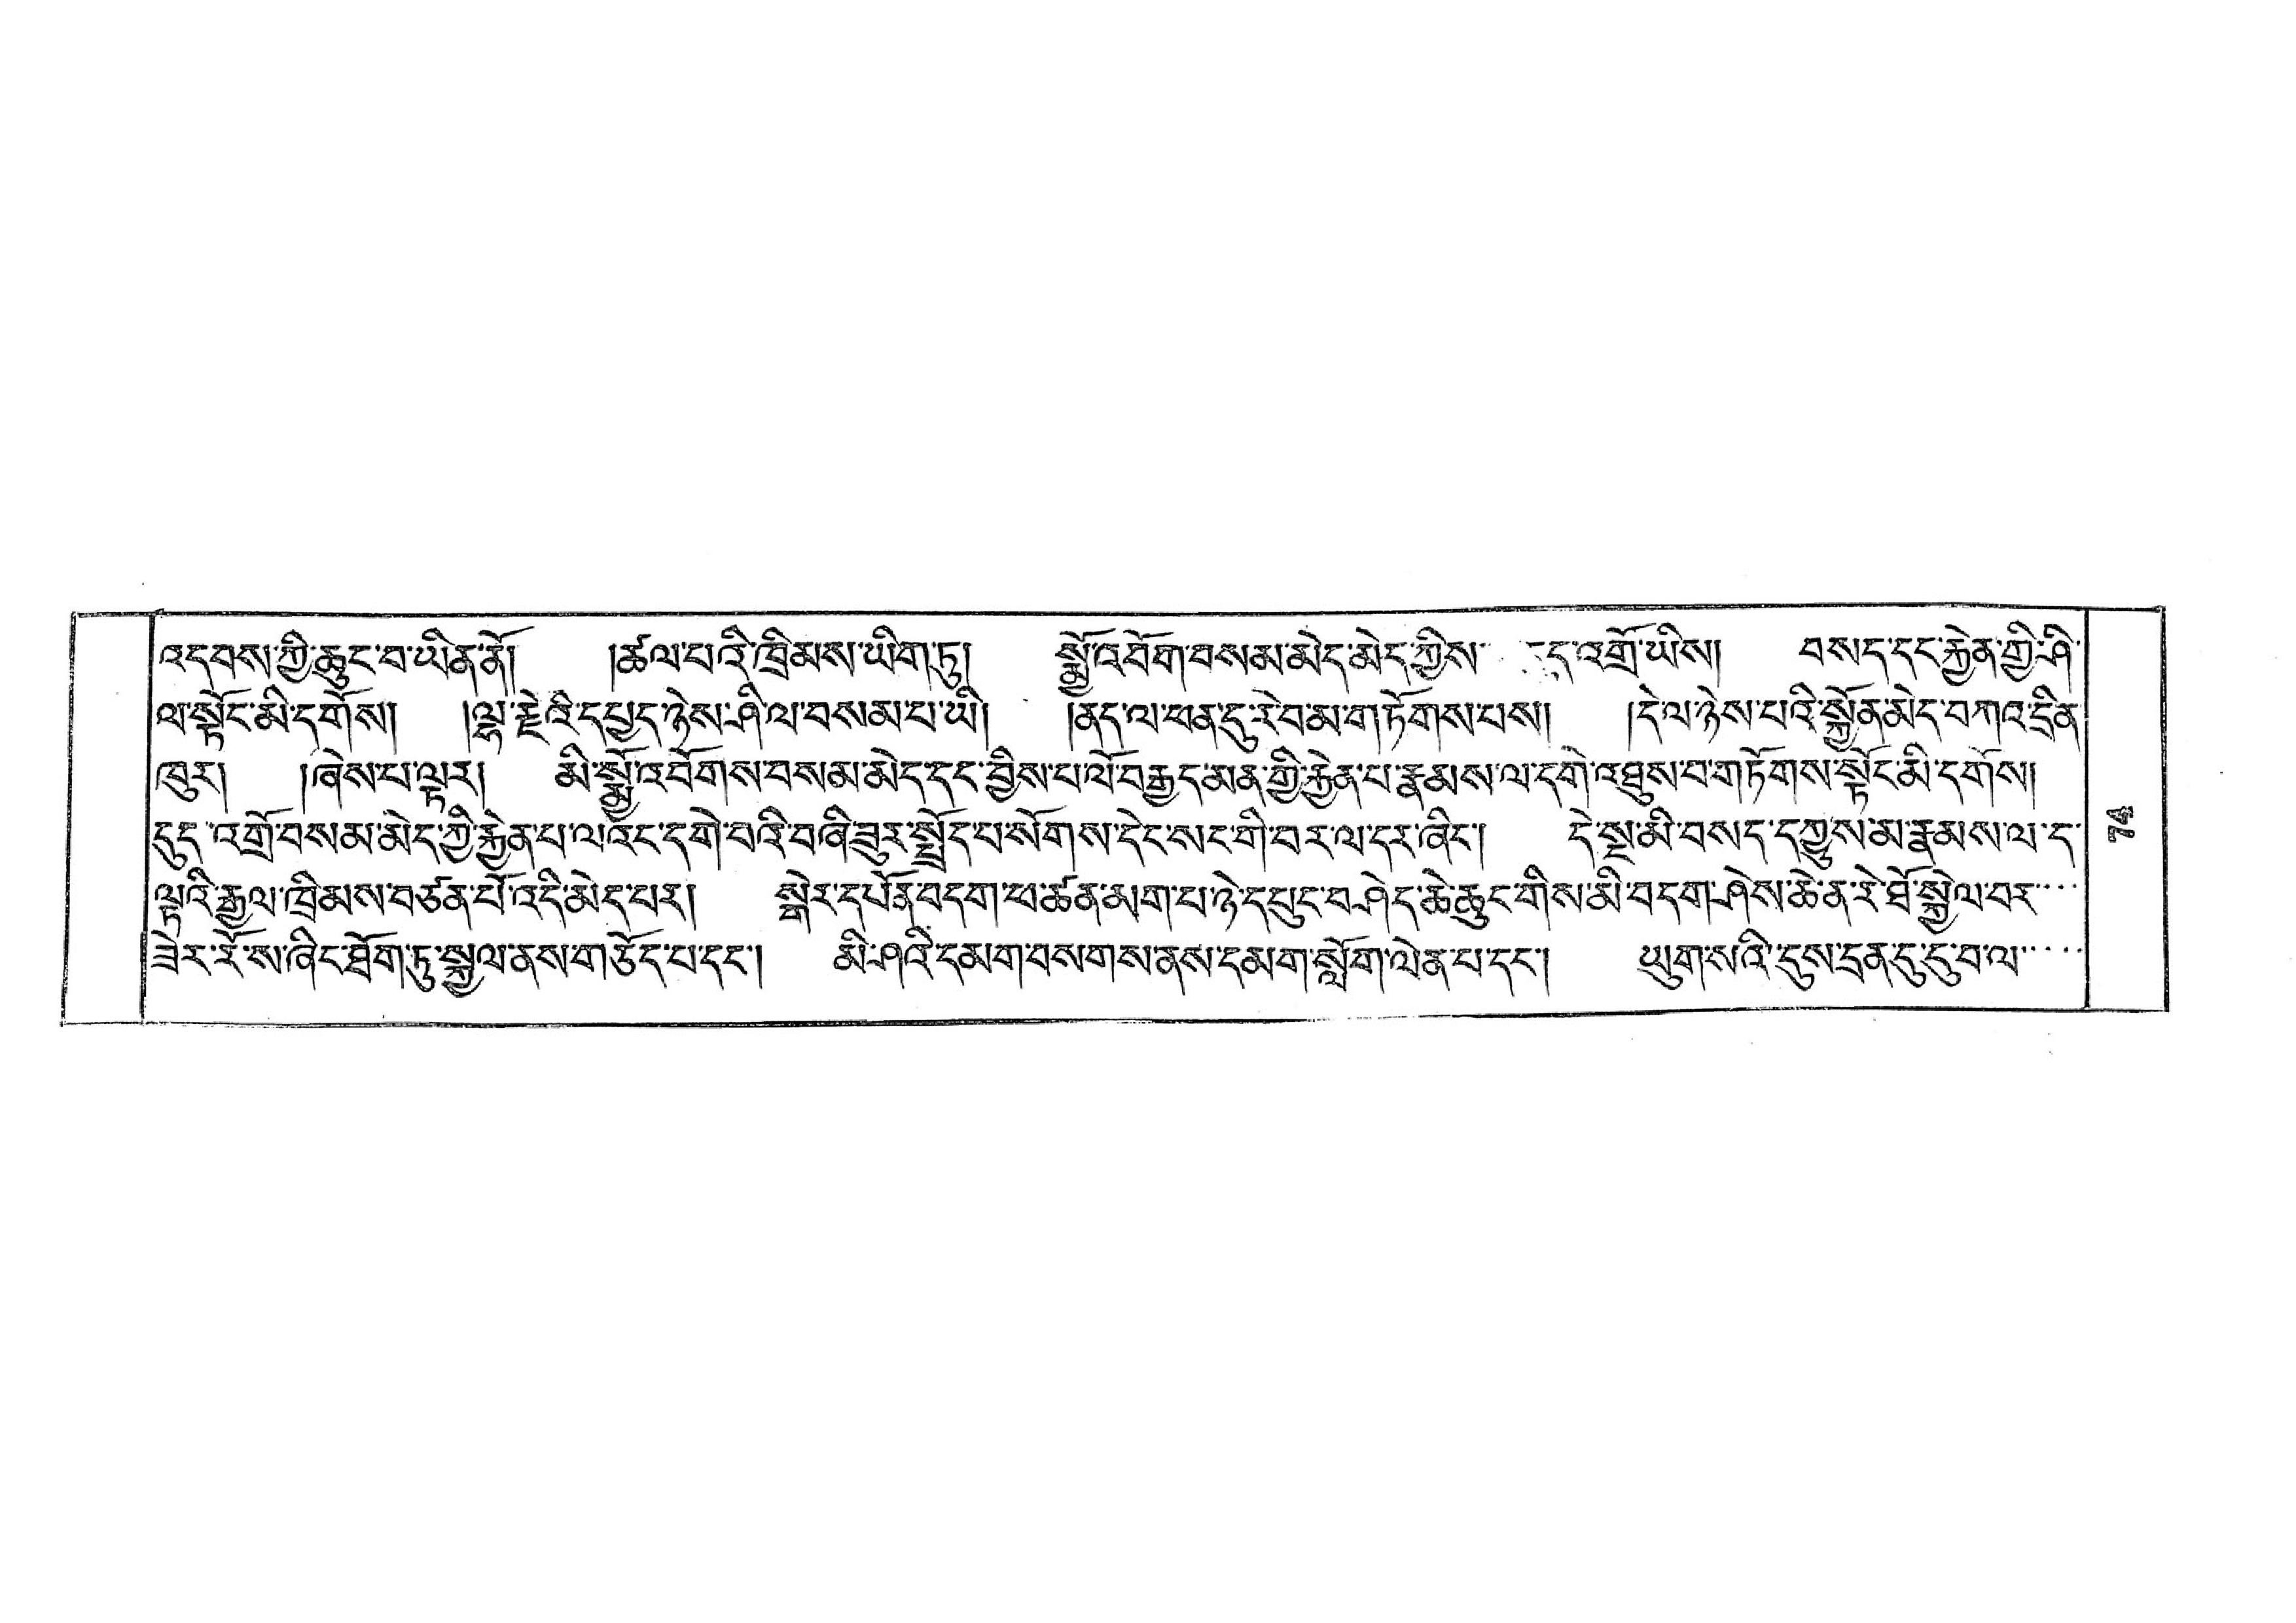འདབས་ཀྱི་ཆུང་བ་ཡིན་ནོ། །ཚལ་པའི་ཁྲིམས་ཡིག་ཏུ། སྨྱོ་འབོག་བསམ་མེད་མེད་ཀྱིས་དུད་འགྲོ་ཡིས། བསད་དུང་རྐྱེན་གྱི་ཤི་
ལ་སྟོང་མི་དགོས། །ལྷ་རྗེའི་དཔྱད་ཉེས་ཤི་ལ་བསམ་པ་ཡི། །ནད་ལ་ཕན་དུ་རེབ་མ་གཏོགས་པས། །དེ་ལ་ཉེས་པའི་སྐྱོན་མེད་བཀའ་དྲིན་
ཁུར། །ཞེས་པ་ལྟར། མི་སྨྱོ་འབོགས་བསམ་མེད་དང་བྱིས་པ་ལོ་བརྒྱད་མན་གྱི་རྐྱེན་པ་རྣམས་ལ་དགེ་འཐུས་བ་གཏོགས་སྟོང་མི་དགོས།
དུད་འགྲོ་བསམ་མེད་ཀྱི་རྐྱེན་པ་ལའང་དགེ་བའི་བཞི་ཟུར་སྤྲོད་པ་སོགས་དེང་སང་གི་བར་ལ་དར་ཞིང་། དེ་སྔ་མི་བསད་དཀྱུས་མ་རྣམས་ལ་ད་
ལྟའི་རྒྱལ་ཁྲིམས་བཙན་པོ་འདི་མེད་པར། སྒེར་དཔོན་བདག་ཕ་ཚན་མག་པ་ཉེ་དཔུང་བཤེད་ཆེ་ཆུང་གིས་མི་བདག་ཤེས་ཆེ་ན་རེ་ཐོ་སྐྱེལ་བར་་་་
ཟེར་རོ་ས་ཞིང་ཐོག་ཏུ་སྐྱལ་ནས་གཅོད་པ་དང་། མི་ཤའི་དམག་བསགས་ནས་དམག་སློག་ལེན་པ་དང་། ཡུག་སའི་དུས་དྲན་དུ་དུ་བ་ལ་་་་་
